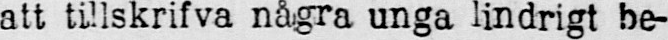att tillskrifva några unga lindrigt be-
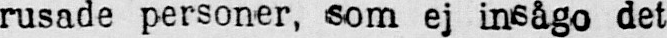rusade personer, som ej insågo det
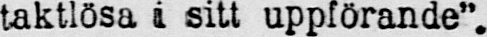taktlösa i sitt uppförande”.
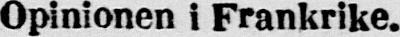Opinionen i Frankrike.
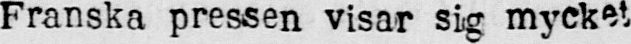Franska pressen visar sig mycket
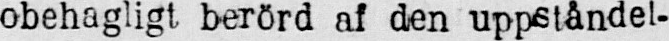obehagligt berörd af den uppståndel-
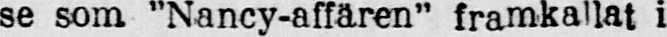se som "Nancy-affären” framkallat i
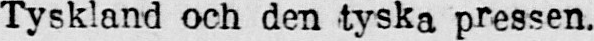Tyskland och den tyska pressen.
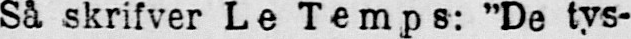Så skrifver Le Temps: ”De tys-
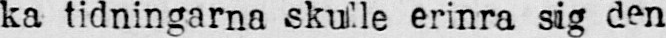ka tidningarna skulle erinra sig den
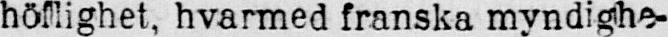höflighet, hvarmed franska myndighe-
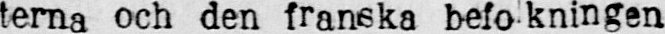terna och den franska befokningen
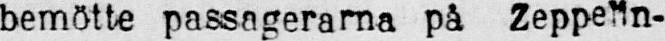bemötte passagerarna på Zeppelln-
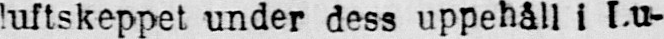luftskeppet under dess uppehåll i I.u-
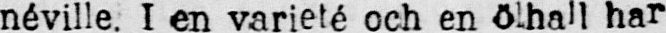néville. I en varieté och en ölhall har
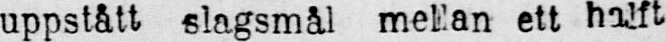uppstått slagsmål mellan ett halft
